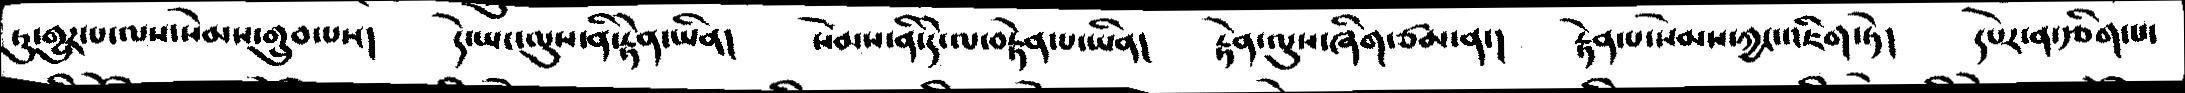ཏུ་གྱུར་པ་ལས་སེམས་གྲུབ་པས།   དེ་ཡང་ལུས་ནི་རྟེན་ཡིན།   སེམས་ནི་དེ་ལ་བརྟེན་པ་ཡིན།   རྟེན་ལུས་ཞིག་ཙམ་ན་།  རྟེན་པ་སེམས་ཀྱང་འཇིག་ཏེ།   དཔེར་ན་རྩིག་པ་
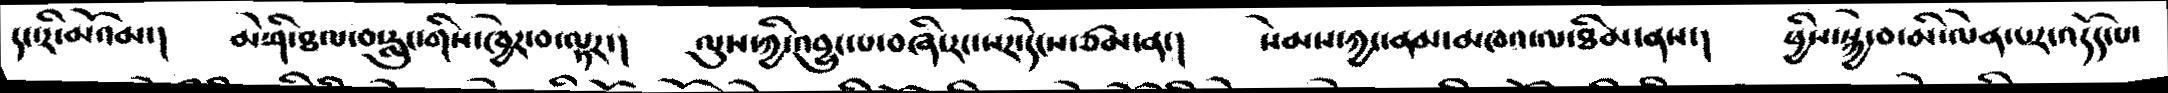དང་རི་མོའམ་།   མེ་ཤི་ཐལ་བ་རླུང་གིས་ཁྱེར་བ་ལྟར་།   ལུས་ཀྱི་འབྱུང་པ་བཞི་རང་སར་དེངས་ཙམ་ན་།   སེམས་ཀྱང་ནམ་མཁའ་ལ་ཐིམ་ནས་།   ཕྱིས་སྐྱེ་བ་མི་ལེན་པར་འདོད་པ་
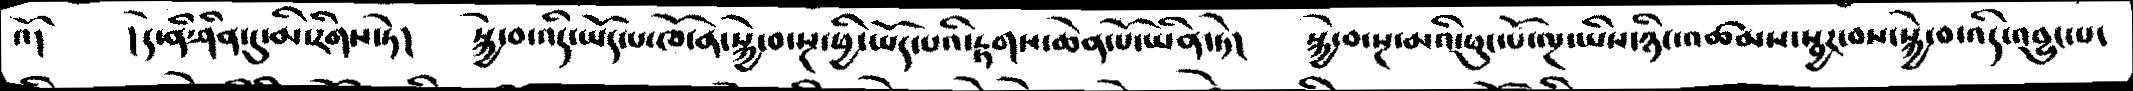འོ།    །དེ་ནི་ཤིན་དུ་མི་རིགས་ཏེ།   སྐྱེ་བ་འདི་ཡོད་པ་ཁོ་ན་སྐྱེ་བ་སྔ་ཕྱི་ཡོད་པའི་རྟགས་ཆེན་པོ་ཡིན་ཏེ།   སྐྱེ་བ་སྔ་མའི་ཕུང་པོ་ལྔ་ཡིས་ཉིང་འཚམས་སྦྱར་བས་སྐྱེ་བ་འདི་འབྱུང་པ་
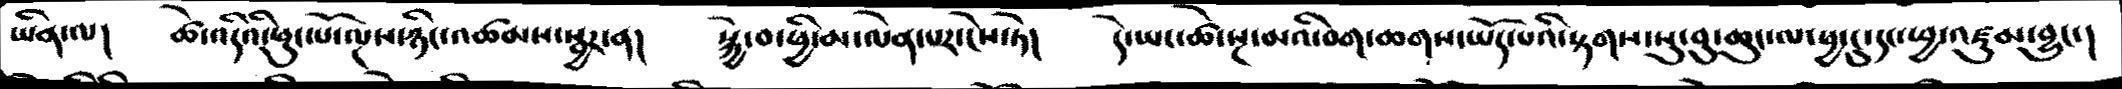ཡིན་ལ།   ཚེ་འདིའི་ཕུང་པོ་ལྔས་ཉིང་འཚམས་སྦྱོར་ན།   སྐྱེ་བ་ཕྱི་མ་ལེན་པར་ངེས་ཏེ།   དེ་ཡང་ཚེ་སྔ་མའི་བག་ཆགས་ཡོད་པའི་རྟགས་སུ་བུ་ཆུང་ལ་ཕྱ་ངུ་དང་ཕྱ་འཛུམ་བྱུང།
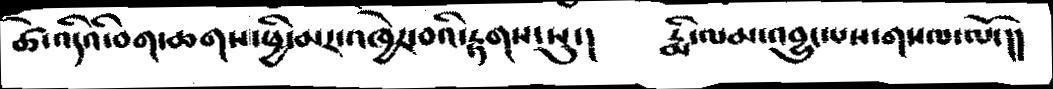ཚེ་འདིའི་བག་ཆགས་ཕྱི་མར་འཁྱེར་བའི་རྟགས་སུ་།   རྨི་ལམ་འབྱུང་པས་གསལ་ལོ་།།
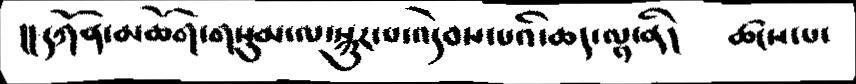།།དཀོན་མཆོག་གསུམ་ལ་སྐུར་པ་འདེབས་པའི་ཆད་ལྟ་ནི།   ཚངས་པ་
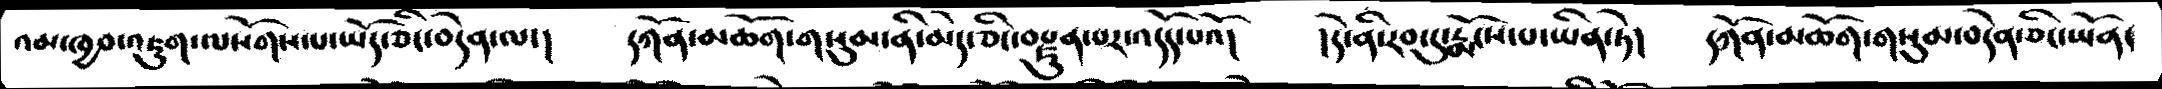འམ་ཁྱབ་འཇུག་ལསོགས་པ་ཡོད་ཅིང་བདེན་ལ་།  དཀོན་མཆོག་གསུམ་ནི་མེད་ཅིང་བརྫུན་པར་འདོད་པའོ།   །དེ་ནི་རབ་ཏུ་རྨོངས་པ་ཡིན་ཏེ།   དཀོན་མཆོག་གསུམ་བདེན་ཅིང་ཡོན་
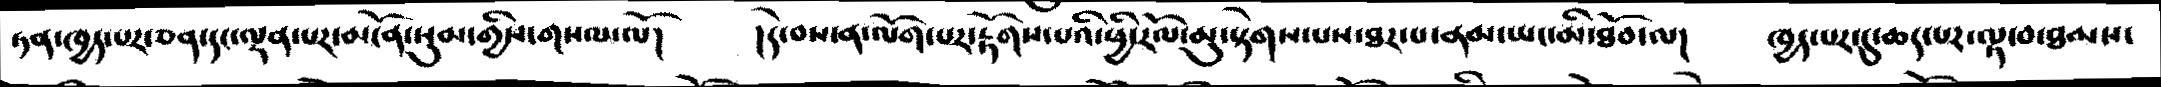ཏན་ཁྱད་པར་ཅན་དང་ལྡན་པར་མངོན་སུམ་གྱིས་གསལ་ལོ།   །དེ་བས་ན་ལོག་པར་རྟོགས་པའི་ཕྱི་རོལ་མུ་སྟེགས་པས་ཐར་པ་ནམ་ཡང་མི་ཐོབ་ལ།   ཁྱད་པར་དུ་ཆད་པར་ལྟ་བ་ཐམས་
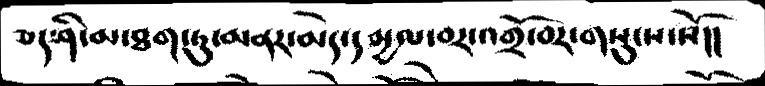ཅད་ཤི་མ་ཐག་ཏུ་མནར་མེད་དམྱལ་བར་འགྲོ་བར་གསུངས་སོ།།
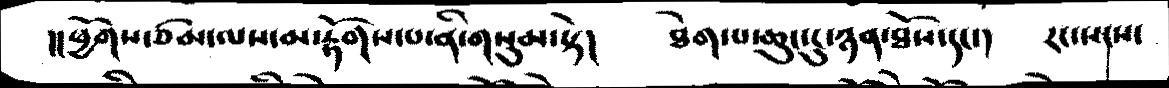།།ཕྱོགས་ཙམ་ལས་མ་རྟོགས་པ་ནི་གསུམ་སྟེ།   ཐེག་པ་ཆུང་ངུ་ཉན་ཐོས་དང་།   རང་སངས་
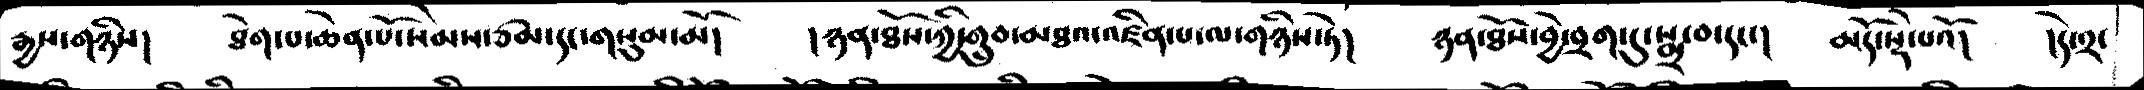རྒྱས་གཉིས།   ཐེག་པ་ཆེན་པོ་སེམས་ཙམ་དང་གསུམ་མོ།   །ཉན་ཐོས་ཀྱི་གྲུབ་མཐའ་འཛིན་པ་ལ་གཉིས་ཏེ།   ཉན་ཐོས་བྱེ་བྲག་དུ་སྨྲ་བ་དང་།   མདོ་སྡེ་པའོ།   །དེ་༢་
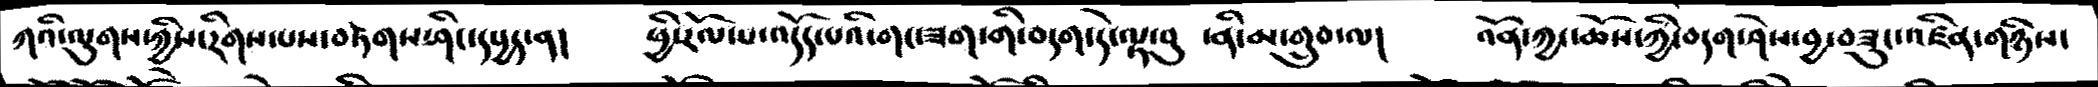ཀའི་ལུགས་ཀྱིས་རིགས་པས་བརྟགས་ཤིང་དཔྱད་ན།   ཕྱི་རོལ་པ་འདོད་པའི་གང་ཟག་གི་བདག་དེ་ལྟ་བུ་ ནི་མ་གྲུབ་ལ།   འོན་ཀྱང་ཆོས་ཀྱི་བདག་ཤེས་བྱ་བཟུང་འཛིན་གཉིས་
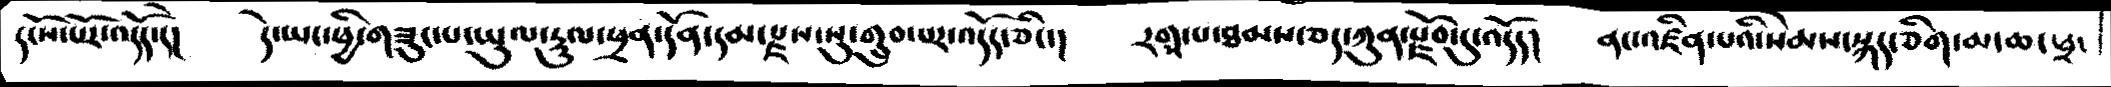དངོས་པར་འདོད་དེ།   དེ་ཡང་ཕྱི་གཟུང་པ་ཡུལ་རྡུལ་ཕྲན་དོན་དམ་རྫས་སུ་གྲུབ་པར་འདོད་ཅིང་།   རགས་པ་ཐམས་ཅད་ཀུན་རྫོབ་དུ་འདོད།  ནང་འཛིན་པའི་སེམས་སྐད་ཅིག་མ་ཆ་ཕྲ་
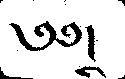༄༅།
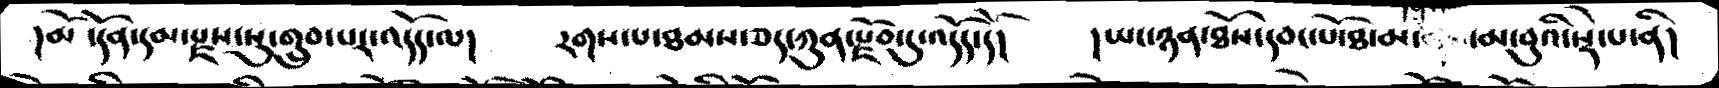།མོ་དོན་དམ་རྫས་སུ་གྲུབ་པར་འདོད་ལ།   རགས་པ་ཐམས་ཅད་ཀུན་རྫོབ་དུ་འདོད་དོ།   །ཡང་ཉན་ཐོས་དབང་པོ་ཐ་མ་གནས་མ་བུའི་སྡེ་པ་ནི།
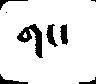གང་
